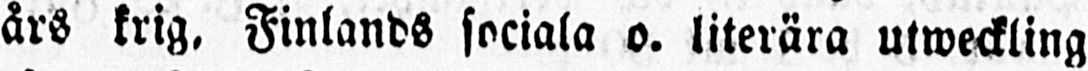års krig, Finlands sociala o. literära utweckling
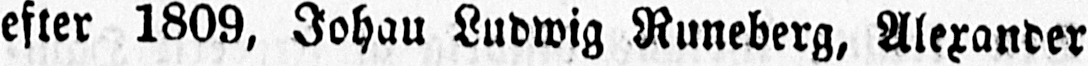efter 1809, Johan Ludwig Runeberg, Alexander
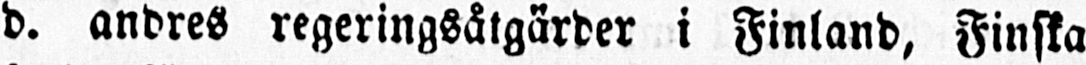d. andres regeringsåtgärder i Finland, Finska
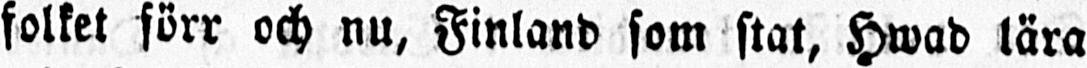folket förr och nu, Finland som stat, Hwad lära
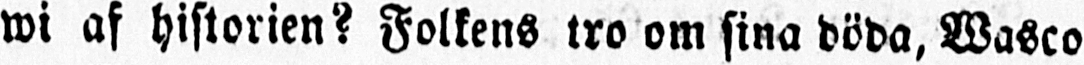wi af historien? Folkens tro om sina döda, Wasco
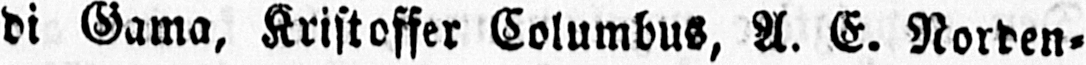di Gama, Kristoffer Columbus, A. E. Norden-
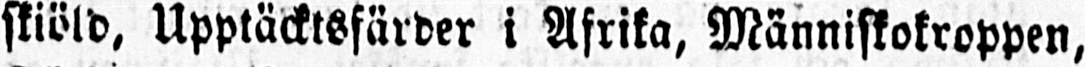skiöld, Upptäcktsfärder i Afrika, Människokroppen,
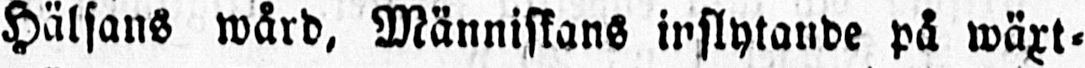Hälsans wård, Människans inflytande på wäxt-
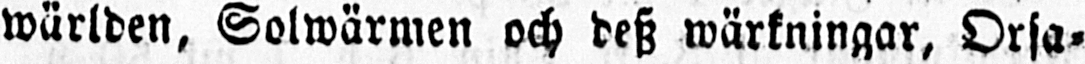wärlden, Solwärmen och desz wärkningar, Orsa-
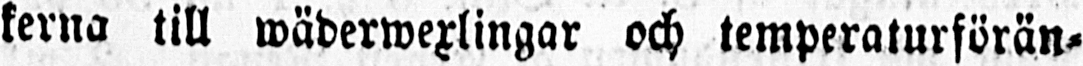kerna till wäderwexlingar och temperaturförän-
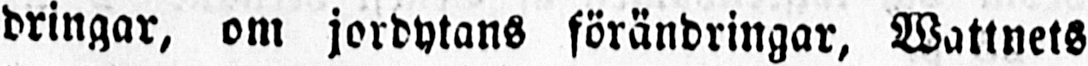dringar, om jordytans förändringar, Wattnets
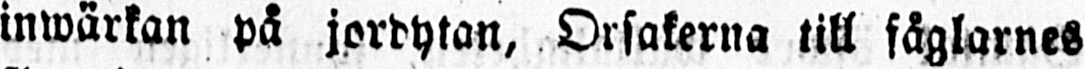inwärkan på jordytan, Orsakerna till fåglarnes
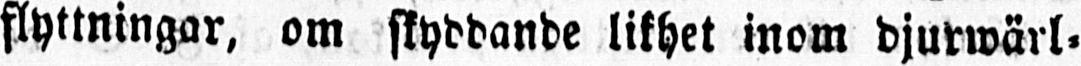flyttningar, om skyddande likhet inom djurwärl-
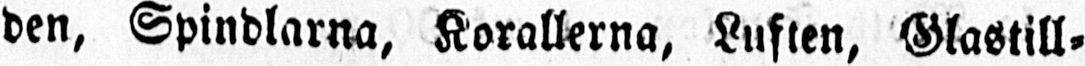den, Spindlarna, Korallerna, Luften, Glastill-
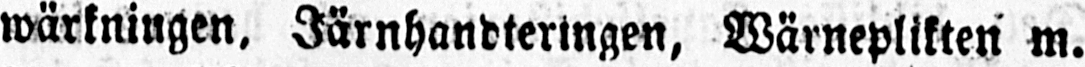wärkningen, Järnhandteringen, Wärneplikten m.
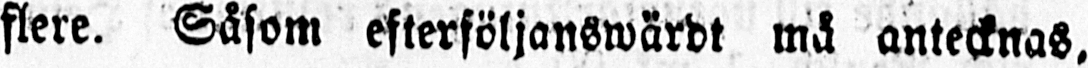flere. Såsom efterföljanswärdt må antecknas,
